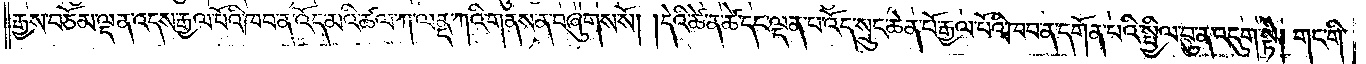རྒྱས་བཅོམ་ལྡན་འདས་རྒྱལ་པོའི་ཁབ་ན་འོད་མའི་ཚལ་ཀ་ལནྡ་ཀའི་གནས་ན་བཞུགས་སོ། །དེའི་ཚེ་ན་ཚེ་དང་ལྡན་པ་འོད་སྲུང་ཆེན་པོ་རྒྱལ་པོའི་ཁབ་ན་དགོན་པའི་སྤྱིལ་བུ་ན་འདུག་སྟེ། གང་གི་
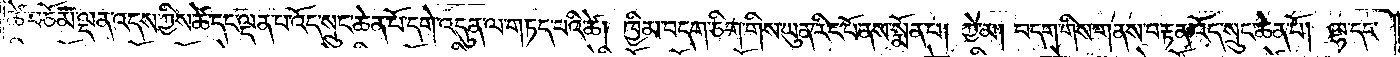ཚེ་བཅོམ་ལྡན་འདས་ཀྱིས་ཚེ་དང་ལྡན་པ་འོད་སྲུང་ཆེན་པོ་དགེ་འདུན་ལ་གཏད་པའི་ཚེ། ཁྱིམ་བདག་ཅིག་གིས་ཡུན་རིང་པོ་ནས་སྨོན་པ། ཀྱེ་མ། བདག་གིས་གནས་བརྟན་འོད་སྲུང་ཆེན་པོ། ལྷ་དང་
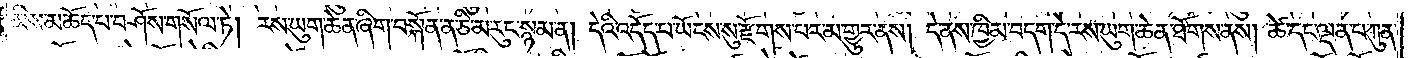མིས་མཆོད་པ་བཤོས་གསོལ་ཏེ། རས་ཡུག་ཆེན་ཞིག་བསྐོན་ན་ཅི་མ་རུང་སྙམ་ན། དེའི་འདོད་པ་ཡོངས་སུ་རྫོགས་པར་མ་གྱུར་ནས། དེ་ནས་ཁྱིམ་བདག་དེ་རས་ཡུག་ཆེན་ཐོགས་ནས། ཚེ་དང་ལྡན་པ་ཀུན་
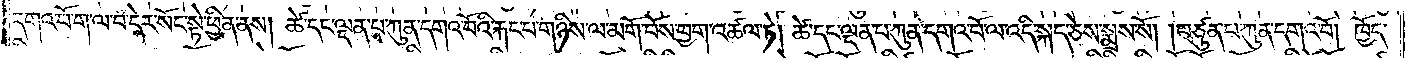དགའ་བོ་ག་ལ་བ་དེར་སོང་སྟེ་ཕྱིན་ནས། ཚེ་དང་ལྡན་པ་ཀུན་དགའ་བོའི་རྐང་པ་གཉིས་ལ་མགོ་བོས་ཕྱག་འཚལ་ཏེ། ཚེ་དང་ལྡན་པ་ཀུན་དགའ་བོ་ལ་འདི་སྐད་ཅེས་སྨྲས་སོ། །བཙུན་པ་ཀུན་དགའ་བོ། ཁྱོད་
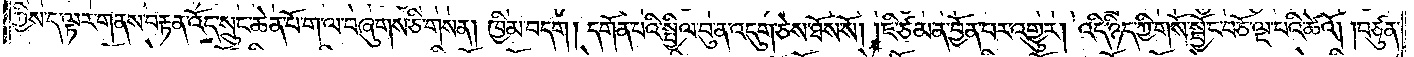ཀྱིས་ད་ལྟར་གནས་བརྟན་འོད་སྲུང་ཆེན་པོ་ག་ལ་བཞུགས་ཅི་གསན། ཁྱིམ་བདག། དགོན་པའི་སྤྱིལ་བུ་ན་འདུག་ཅེས་ཐོས་སོ། །ཇི་ཙམ་ན་བྱོན་པར་འགྱུར། འདི་ཉིད་ཀྱི་གསོ་སྦྱོང་བཅོ་ལྔ་པའི་ཚེའོ། །བཙུན་
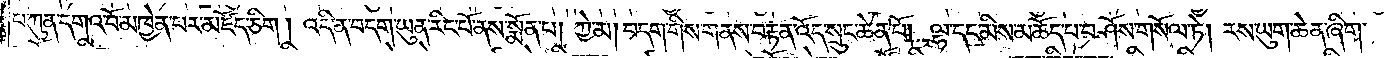པ་ཀུན་དགའ་བོ་མཁྱེན་པར་མཛོད་ཅིང༌། འདི་ན་བདག་ཡུན་རིང་པོ་ནས་སྨོན་པ། ཀྱེ་མ། བདག་གིས་གནས་བརྟན་འོད་སྲུང་ཆེན་པོ། ལྷ་དང་མིས་མཆོད་པ་བཤོས་གསོལ་ཏེ། རས་ཡུག་ཆེན་ཞིག་
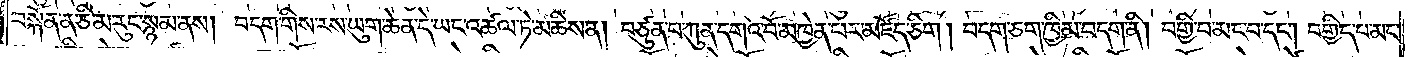བསྐོན་ན་ཅི་མ་རུང་སྙམ་ནས། བདག་གིས་རས་ཡུག་ཆེན་དེ་ཡང་འཚལ་ཏེ་མཆིས་ན། བཙུན་པ་ཀུན་དགའ་བོ་མཁྱེན་པར་མཛོད་ཅིག །བདག་ཅག་ཁྱིམ་བདག་ནི། བགྱི་བ་མང་བ་དང༌། བགྱིད་པ་མང་
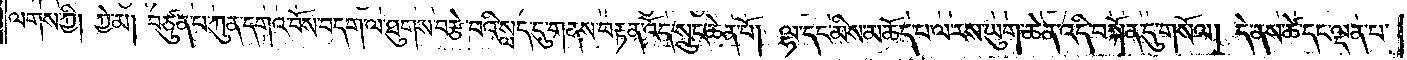ལགས་ཀྱི། ཀྱེ་མ། བཙུན་པ་ཀུན་དགའ་བོས་བདག་ལ་ཐུགས་བརྩེ་བའི་སླད་དུ་གནས་བརྟན་འོད་སྲུང་ཆེན་པོ། ལྷ་དང་མིས་མཆོད་པ་ལ་རས་ཡུག་ཆེན་འདི་བསྐོན་དུ་གསོལ། དེ་ནས་ཚེ་དང་ལྡན་པ་
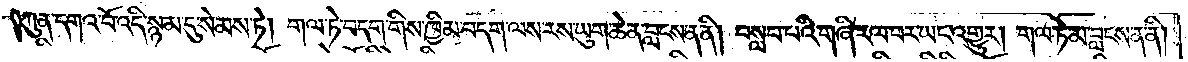ཀུན་དགའ་བོ་འདི་སྙམ་དུ་སེམས་ཏེ། གལ་ཏེ་བདག་གིས་ཁྱིམ་བདག་ལས་རས་ཡུག་ཆེན་བླངས་ན་ནི། བསླབ་པའི་གཞི་རལ་བར་ཡང་འགྱུར། གལ་ཏེ་མ་བླངས་ན་ནི།
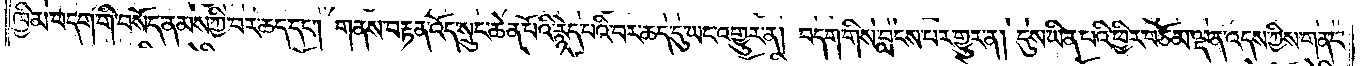ཁྱིམ་བདག་གི་བསོད་ནམས་ཀྱི་བར་ཆད་དང༌། གནས་བརྟན་འོད་སྲུང་ཆེན་པོའི་རྙེད་པའི་བར་ཆད་དུ་ཡང་འགྱུར་ན། བདག་གིས་བླངས་པར་གྱུར་ན། དུས་ཡིན་པའི་ཕྱིར་བཅོམ་ལྡན་འདས་ཀྱིས་གནང་
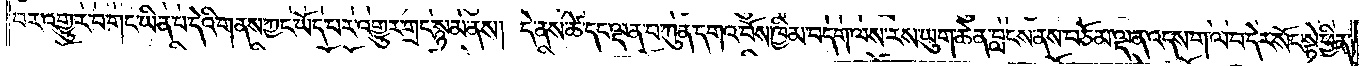བར་འགྱུར་བ་གང་ཡིན་པ་དེའི་གནས་ཀྱང་ཡོད་པར་འགྱུར་གྲང་སྙམ་ནས། དེ་ནས་ཚེ་དང་ལྡན་པ་ཀུན་དགའ་བོས་ཁྱིམ་བདག་ལས་རས་ཡུག་ཆེན་བླངས་ནས་བཅོམ་ལྡན་འདས་ག་ལ་བ་དེར་སོང་སྟེ་ཕྱིན་
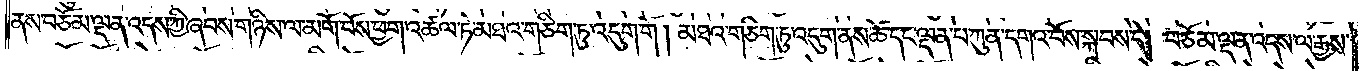ནས་བཅོམ་ལྡན་འདས་ཀྱི་ཞབས་གཉིས་ལ་མགོ་བོས་ཕྱག་འཚལ་ཏེ་མཐའ་གཅིག་ཏུ་འདུག་གོ །མཐའ་གཅིག་ཏུ་འདུག་ནས་ཚེ་དང་ལྡན་པ་ཀུན་དགའ་བོས་སྐབས་དེ། བཅོམ་ལྡན་འདས་ལ་རྒྱས་
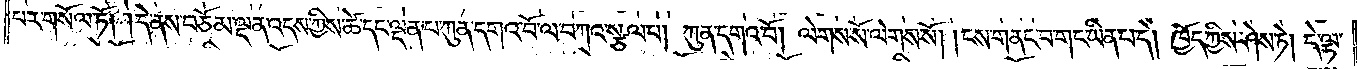པར་གསོལ་ཏོ། །དེ་ནས་བཅོམ་ལྡན་འདས་ཀྱིས་ཚེ་དང་ལྡན་པ་ཀུན་དགའ་བོ་ལ་བཀའ་སྩལ་པ། ཀུན་དགའ་བོ། ལེགས་སོ་ལེགས་སོ། །ངས་གནང་བ་གང་ཡིན་པ་དེ། ཁྱོད་ཀྱིས་ཤེས་ཏེ། དེ་ལྟ་
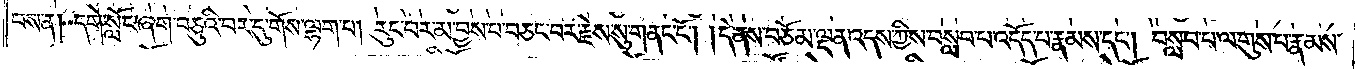བས་ན། དགེ་སློང་ཞག་བཅུའི་བར་དུ་གོས་ལྷག་པ། རུང་བར་མ་བྱས་པ་བཅང་བར་རྗེས་སུ་གནང་ངོ༌། །དེ་ནས་བཅོམ་ལྡན་འདས་ཀྱིས་བསླབ་པ་འདོད་པ་རྣམས་དང༌། བསླབ་པ་ལ་གུས་པ་རྣམས་
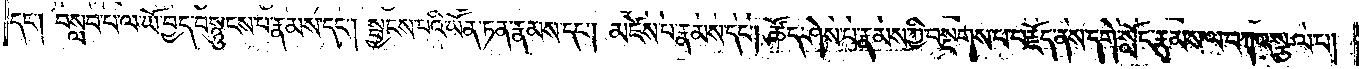དང༌། བསླབ་པ་ལ་ཡོ་བྱད་བསྙུངས་པ་རྣམས་དང༌། སྦྱངས་པའི་ཡོན་ཏན་རྣམས་དང༌། མཛེས་པ་རྣམས་དང༌། ཚོད་ཤེས་པ་རྣམས་ཀྱི་བསྔགས་པ་བརྗོད་ནས་དགེ་སློང་རྣམས་ལ་བཀའ་སྩལ་པ།
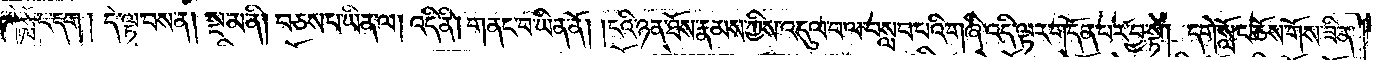དགེ་སློང་དག། དེ་ལྟ་བས་ན། སྔ་མ་ནི། བཅས་པ་ཡིན་ལ། འདི་ནི། གནང་བ་ཡིན་ནོ། །ངའི་ཉན་ཐོས་རྣམས་ཀྱིས་འདུལ་བ་ལ་བསླབ་པའི་གཞི་འདི་ལྟར་གདོན་པར་བྱ་སྟེ། དགེ་སློང་ཆོས་གོས་ཟིན་
